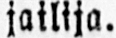jailija.
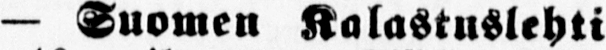— Suomen Kalastuslehti
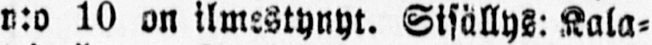n:o 10 on ilmestynyt. Sisällys: Kala-
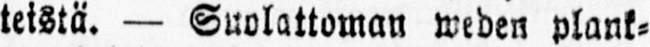teistä. — Suolattoman weden plank-
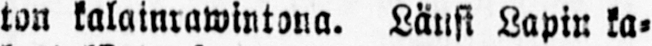ton kalainrawintona. Länsi Lapin ka-
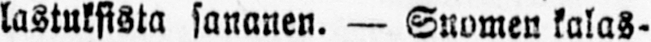lastuksista sananen. — Suomen kalas-
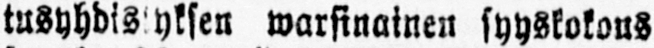tusyhdistyksen warsinainen syyskokous
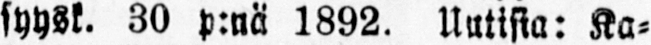syysk. 30 p:nä 1892. Uutisia: Ka-
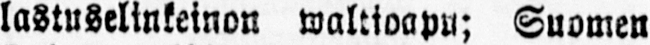lastuselinkeinon waltioapu; Suomen
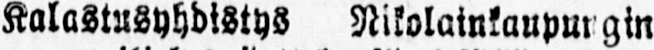Kalastusyhdistys Nikolainkaupungin
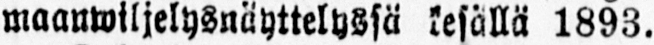maanwiljelysnäyttelyssä kesällä 1893.
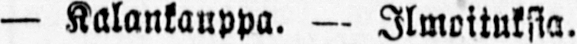— Kalankauppa. — Ilmoituksia.
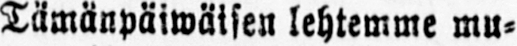Tämänpäiwäisen lehtemme mu-
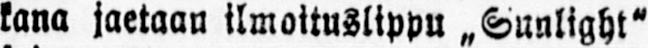kana jaetaan ilmoituslippu „Sunlight"
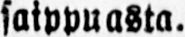saippuasta.
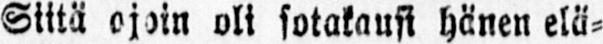Siitä ojoin oli satokausi hänen elä-
